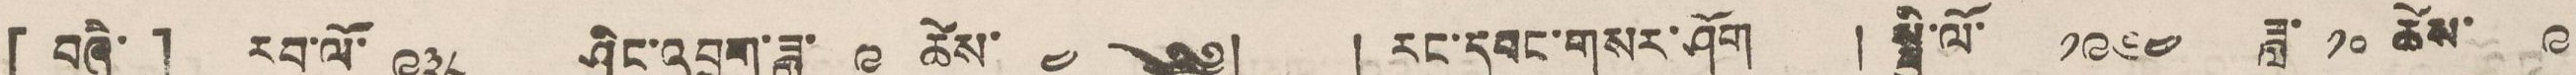[ བཞི་ ] རབ་ལོ་ ༩༣༨ ཤིང་འབྲུག་ཟླ་ ༩ ཚེས་ ༤ ༄༅། ། རང་དབང་གསར་ཤོག །སྤྱི་ལོ་ ༡༩༦༤ ཟླ་ ༡༠ ཚེས་ ༩
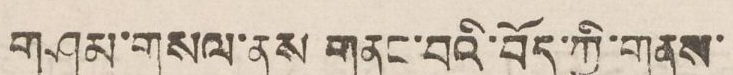གཤམ་གསལ་ནས གནང་བའི་བོད་ཀྱི་གནས་
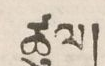ཚུལ།
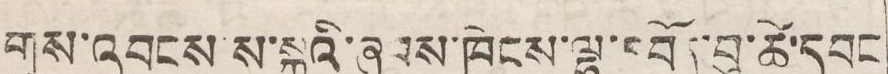གུས་འབངས ས་སྐྱའི་ཞབས་ཁེངས་ལྷ་བོད་བུ་ཚེ་དབང
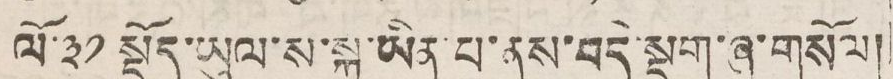ལོ་༣༡སྡོད་ཡུལ་ས་སྐྱ་ཡིན་པ་ནས་བདེ་སྡུག་ཞུ་གསོལ།
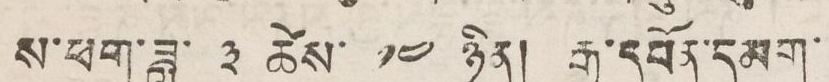ས་ཕག་ཟླ་ ༣ ཚེས་ ༡༤ ཉིན། རྒྱ་དཔོན་དམག་
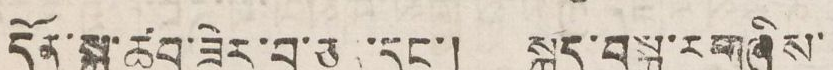དོན་སྐུ་ཚབ་ཟེར་བ་ཅད་དང་། སྐད་བསྒྱུ་ར་གཞིས་
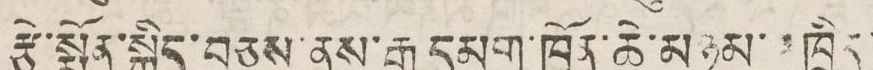རྩེ་སྨོན་སྐྱིད་བཅས་ནས་རྒྱ་དམག་ཁྱོན་ཆེ་མཉམ་་ཁྲིད་
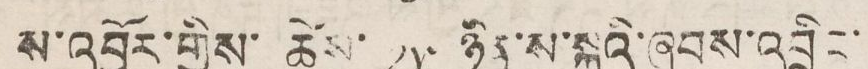ས་འབྱོར་གྱིས་ཚེས་ ༡༥ ཉིན་ས་སྐྱའི་ཞབས་འབྲིང་
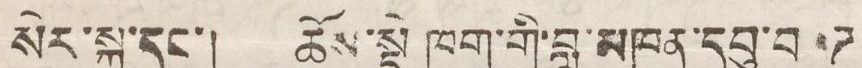སེར་སྐྱ་དང་། ཆོས་སྡེ ཁག་གི་བླ་མཁན་དབུ་བཞུཊ
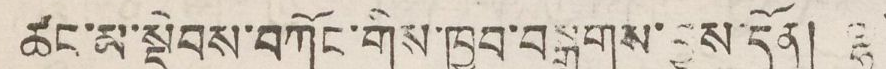ཚང་མ་སྡེབས་བཀོང་གིས་ཁྱབ་བསྒྲགས་བྱས་དོན། ལྷ་
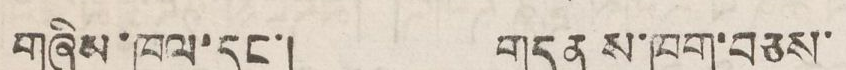གཞིས་ཁུལ་དང་། གདན ས་ཁག་བཅས་
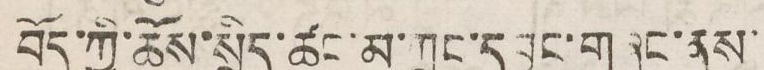བོད་ཀྱི་ཆོས་སྲིད་ཚང་མ་གྲུང་དབྱར་གཞུང་ནས་
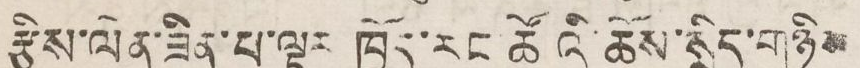རྩིས་ལེན་ཟིན་པ་ལྟར ཁྱོད་རང་ཚོའི་ཆོས་སྲིད་གཉིས
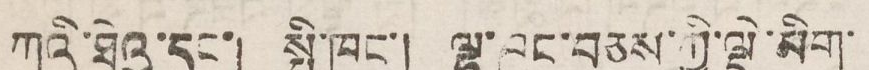ཀའི་ཐེའུ་དང་། སྤྱི་ཁང་། ལྷ་ཁང་བཅས་ཀྱི་ལྡེ་མིག་
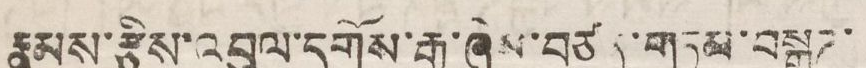རྣམས་རྩིས་འབུལ་དགོས་རྒྱུ་ཞེས་བཙན་གཏམ་བསྒྲཊ་
